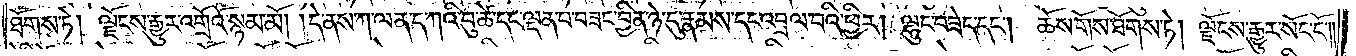ཐོགས་ཏེ། ལྗོངས་རྒྱུར་འགྲོའོ་སྙམ་མོ། །དེ་ནས་ཀ་ལན་ད་ཀའི་བུ་ཚེ་དང་ལྡན་པ་བཟང་བྱིན་ཉེ་དུ་རྣམས་དང་འབྲལ་བའི་ཕྱིར། ལྷུང་བཟེད་དང༌། ཆོས་གོས་ཐོགས་ཏེ། ལྗོངས་རྒྱུར་སོང་ངོ༌༎
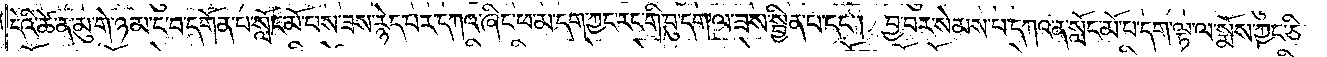དེའི་ཚེ་ན་མུ་གེ་ཉམ་ང་བ་དགོན་པ་སློང་མོ་པས་ཟས་རྙེད་པར་དཀའ་ཞིང་ཕ་མ་དག་ཀྱང་རང་གི་བུ་དག་ལ་ཟས་སྦྱིན་པ་དང༌། བྱ་བར་སེམས་པ་དཀའ་ན་སློང་མོ་པ་དག་ལྟ་ལ་སྨོས་ཀྱང་ཅི་
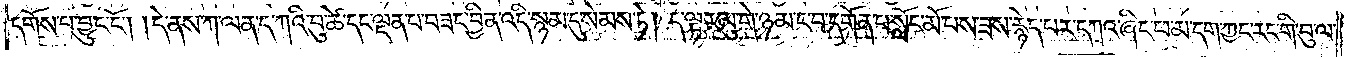དགོས་པ་བྱུང་ངོ༌། །དེ་ནས་ཀ་ལན་ད་ཀའི་བུ་ཚེ་དང་ལྡན་པ་བཟང་བྱིན་འདི་སྙམ་དུ་སེམས་ཏེ། ད་ལྟར་མུ་གེ་ཉམ་ང་བ་དགོན་པ་སློང་མོ་པས་ཟས་རྙེད་པར་དཀའ་ཞིང་ཕ་མ་དག་ཀྱང་རང་གི་བུ་ལ་
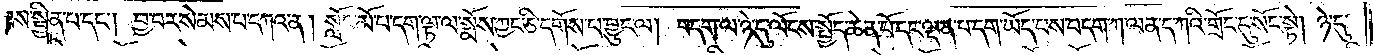ཟས་སྦྱིན་པ་དང༌། བྱ་བར་སེམས་པ་དཀའ་ན། སློང་མོ་པ་དག་ལྟ་ལ་སྨོས་ཀྱང་ཅི་དགོས་པ་བྱུང་ལ། བདག་ལ་ཉེ་དུ་ལོངས་སྤྱོད་ཆེན་པོ་དང་ལྡན་པ་དག་ཡོད་པས་བདག་ཀ་ལན་ད་ཀའི་གྲོང་དུ་སོང་སྟེ། ཉེ་དུ་
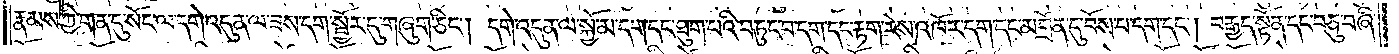རྣམས་ཀྱི་གན་དུ་སོང་ལ་དགེ་འདུན་ལ་ཟས་དག་སྦྱོར་དུ་གཞུག་ཅིང༌། དགེ་འདུན་ལ་སྐྱོ་མ་དག་དང་ཐུག་པའི་བཏུང་བ་དག་དང་རྟག་རེས་འཁོར་དག་དང་མགྲོན་དུ་བོས་པ་དག་དང༌། བརྒྱད་སྟོན་དང་བཅུ་བཞི་
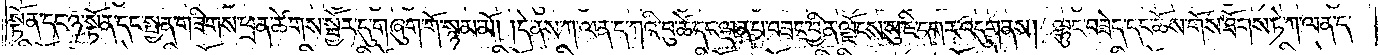སྟོན་དང་ཉ་སྟོན་དང་སྤྱན་གཟིགས་ཕྲན་ཚེགས་སྦྱོར་དུ་གཞུག་གོ་སྙམ་མོ། །དེ་ནས་ཀ་ལན་ད་ཀའི་བུ་ཚེ་དང་ལྡན་པ་བཟང་བྱིན་ལྗོངས་སུ་ཇི་དགར་འདུག་ནས། ལྷུང་བཟེད་དང་ཆོས་གོས་ཐོགས་ཏེ་ཀ་ལན་ད་
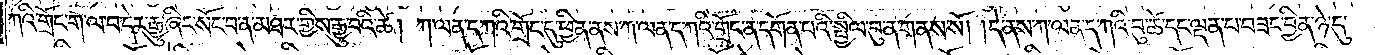ཀའི་གྲོང་ག་ལ་བ་དེར་རྒྱུ་ཞིང་སོང་བ་ན་མཐར་གྱིས་རྒྱུ་བའི་ཚེ། ཀ་ལན་ད་ཀའི་གྲོང་དུ་ཕྱིན་ནས་ཀ་ལན་ད་ཀའི་གྲོང་ན་དགོན་པའི་སྤྱིལ་བུ་ན་གནས་སོ། །དེ་ནས་ཀ་ལན་ད་ཀའི་བུ་ཚེ་དང་ལྡན་པ་བཟང་བྱིན་ཉེ་དུ་
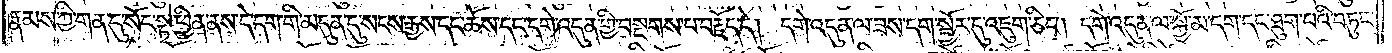རྣམས་ཀྱི་གན་དུ་སོང་སྟེ་ཕྱིན་ནས་དེ་དག་གི་མདུན་དུ་སངས་རྒྱས་དང་ཆོས་དང་དགེ་འདུན་གྱི་བསྔགས་པ་བརྗོད་དེ། དགེ་འདུན་ལ་ཟས་དག་སྦྱོར་དུ་འཇུག་ཅིང༌། དགེ་འདུན་ལ་སྐྱོ་མ་དག་དང་ཐུག་པའི་བཏུང་
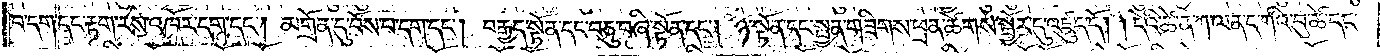བ་དག་དང་རྟག་རས་འཁོར་དག་དང༌། མགྲོན་དུ་བོས་པ་དག་དང༌། བརྒྱད་སྟོན་དང་བཅུ་བཞི་སྟོན་དང༌། ཉ་སྟོན་དང་སྤྱན་གཟིགས་ཕྲན་ཚེགས་སྦྱོར་དུ་འཛུད་དོ། །དེའི་ཆེ་ན་ཀ་ལན་ད་ཀའི་བུ་ཚེ་དང་
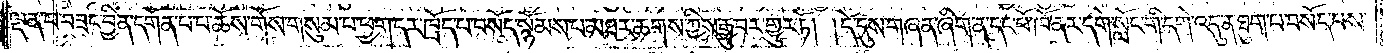ལྡན་པ་བཟང་བྱིན་དགོན་པ་པ་ཆོས་གོས་གསུམ་པ་ཕྱག་དར་ཁྲོད་པ་བསོད་སྙོམས་པ་མཐར་ཆགས་ཀྱིས་རྒྱུ་བར་གྱུར་ཏོ། །དེ་དུས་གཞན་ཞིག་ན་དང་པོ་ཁོ་ནར་དགེ་སློང་གི་དགེ་འདུན་ཐུག་པ་བསོད་པས་
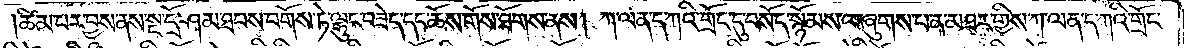།ཚིམ་པར་བྱས་ནས་སྔ་དྲོ་ཤམ་ཐབས་བགོས་ཏེ་ལྷུང་བཟེད་དང་ཆོས་གོས་ཐོགས་ནས། ཀ་ལན་ད་ཀའི་གྲོང་དུ་བསོད་སྙོམས་ལ་ཞུགས་པ་ན་མཐར་གྱིས་ཀ་ལན་ད་ཀའི་གྲོང་
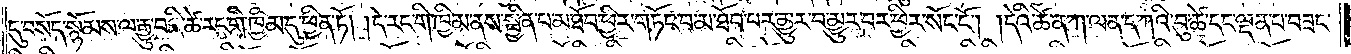དུ་བསོད་སྙོམས་ལ་རྒྱུ་བའི་ཚེ་རང་གི་ཁྱིམ་དུ་ཕྱིན་ཏོ། །དེ་རང་གི་ཁྱིམ་ནས་སྦྱིན་པ་མ་ཐོབ་ཕྱིར་གཏོང་བ་མ་ཐོབ་པར་མྱུར་བ་མྱུར་བར་ཕྱིར་སོང་ངོ༌། །དེའི་ཚེ་ན་ཀ་ལན་ད་ཀའི་བུ་ཚེ་དང་ལྡན་པ་བཟང་
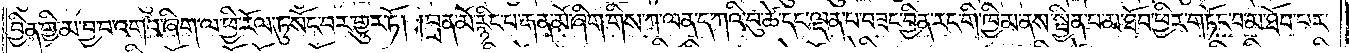བྱིན་གྱི་མ་བྱ་བ་འགའ་ཞིག་ལ་ཕྱི་རོལ་ཏུ་སོང་བར་གྱུར་ཏོ། །བྲན་མོ་རྙིང་པ་རྒན་མོ་ཞིག་གིས་ཀ་ལན་ད་ཀའི་བུ་ཚེ་དང་ལྡན་པ་བཟང་བྱིན་རང་གི་ཁྱིམ་ནས་སྦྱིན་པ་མ་ཐོབ་ཕྱིར་གཏོང་བ་མ་ཐོབ་པར་
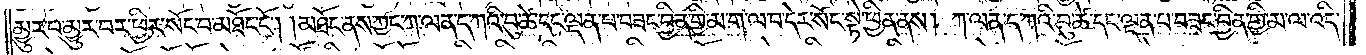མྱུར་བ་མྱུར་བར་ཕྱིར་སོང་བ་མཐོང་ངོ༌། །མཐོང་ནས་ཀྱང་ཀ་ལན་ད་ཀའི་བུ་ཚེ་དང་ལྡན་པ་བཟང་བྱིན་གྱི་མ་ག་ལ་བ་དེར་སོང་སྟེ་ཕྱིན་ནས། ཀ་ལན་ད་ཀའི་བུ་ཚེ་དང་ལྡན་པ་བཟང་བྱིན་གྱི་མ་ལ་འདི་
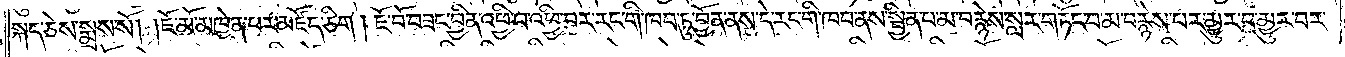སྐད་ཅེས་སྨྲས་སོ། །ཇོ་མོ་མཁྱེན་པར་མཛོད་ཅིག །ཇོ་བོ་བཟང་བྱིན་འཕྱི་བ་འཕྱི་བར་རང་གི་ཁབ་ཏུ་བྱོན་ནས་དེ་རང་གི་ཁབ་ནས་སྦྱིན་པ་མ་བརྙེས་སླར་གཏོང་བ་མ་བརྙེས་པར་མྱུར་བ་མྱུར་བར་
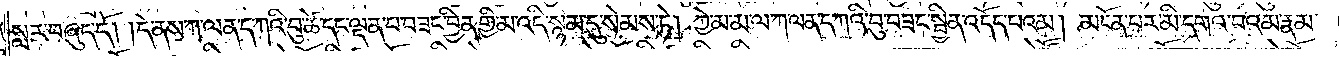སླར་བཞུད་དོ། །དེ་ནས་ཀ་ལན་ད་ཀའི་བུ་ཚེ་དང་ལྡན་པ་བཟང་བྱིན་གྱི་མ་འདི་སྙམ་དུ་སེམས་ཏེ། ཀྱེ་མ་མ་ལ་ཀ་ལན་ད་ཀའི་བུ་བཟང་སྦྱིན་འདོད་པའམ། མངོན་པར་མི་དགའ་བའམ་རྣམ་
